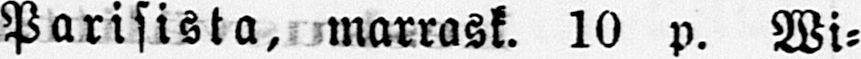Parisista, marrask. 10 p. Wi-
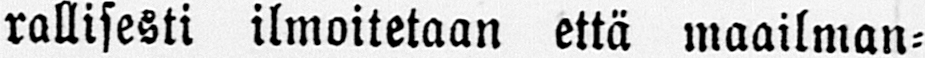rallisesti ilmoitetaan että maailman-
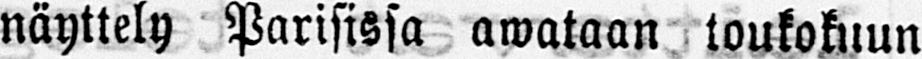näyttely Parisissa awataan toukokuun
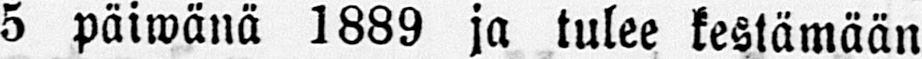5 päiwänä 1889 ja tulee kestämään
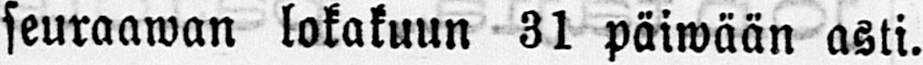seuraawan lokakuun 31 päiwään asti.
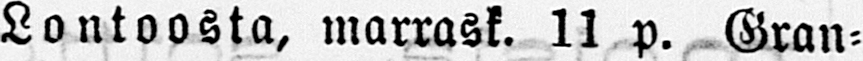Lontoosta, marrask. 11 p. Gran-
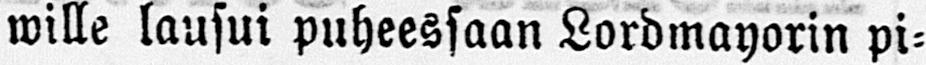wille lausui puheessaan Lordmayorin pi-
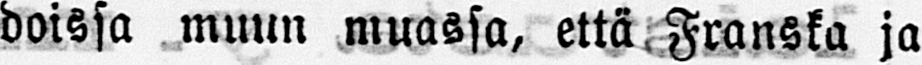doissa muun muassa, että Franska ja
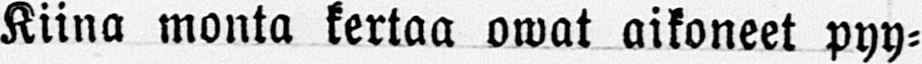Kiina monta kertaa owat aikoneet pyy-
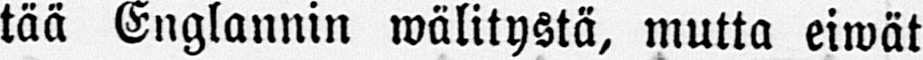tää Englannin wälitystä, mutta eiwät
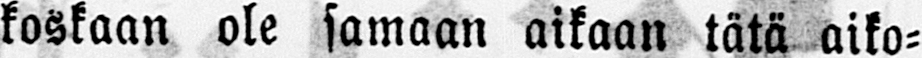koskaan ole samaan aikaan tätä aiko-
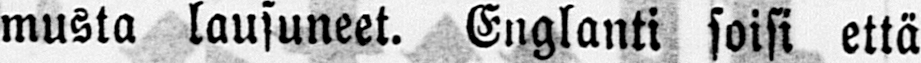musta lausuneet. Englanti soisi että
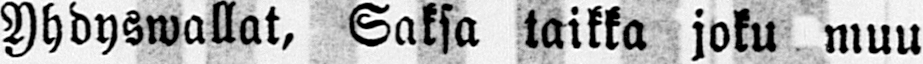Yhdyswallat, Saksa taikka joku muu
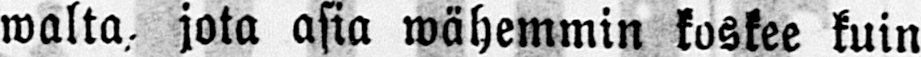walta, jota asia wähemmin koskee kuin
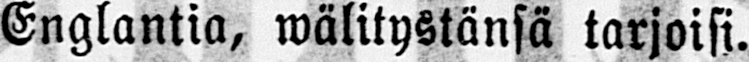Englantia, wälitystänsä tarjoisi.
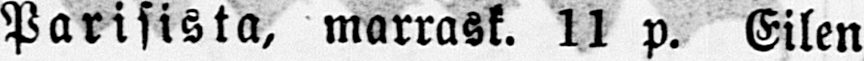Parisista, marrask. 11 p. Eilen
